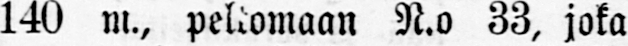140 m., peltomaan N.o 33, joka
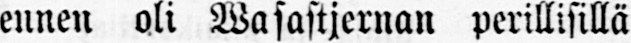ennen oli Wasastjernan perillisillä
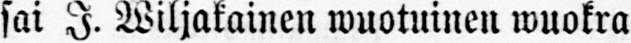sai I. Wiljakainen wuotuinen wuokra
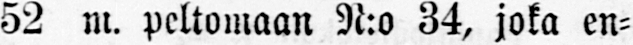52 m. peltomaan N:o 34, joka en-
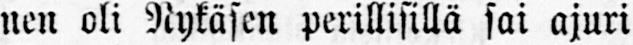nen oli Nykäsen perillisillä sai ajuri
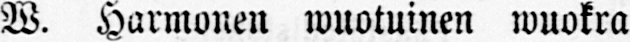W. Harmonen wuotuinen wuokra
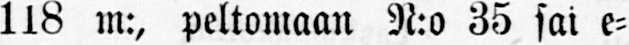118 m:, peltomaan N:o 35 sai e-
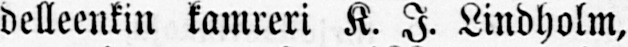delleenkin kamreri K. I. Lindholm,
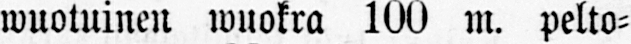wuotuinen wuokra 100 m. pelto-
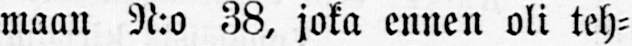maan N:o 38, joka ennen oli teh-
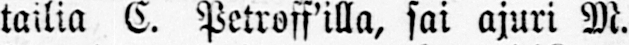tailia C. Petroff'illa, sai ajuri M.
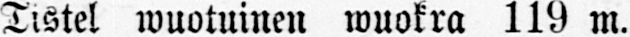Tistel wuotuinen wuokra 119 m.
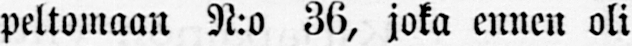peltomaan N:o 36, joka ennen oli
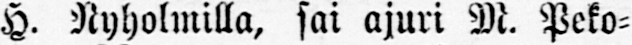H. Nyholmilla, sai ajuri M. Peko-
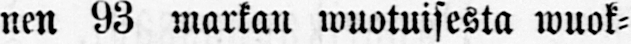nen 93 markan wuotuisesta wuok-
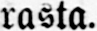rasta.
